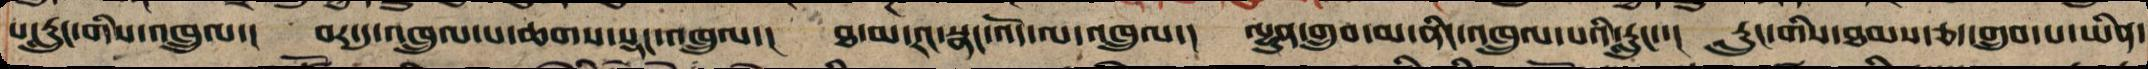པ་རླུང་གིས་འཁྲུལ་།  བར་དུ་འཁྲུལ་པ་ཆགས་སྡང་འཁྲུལ་།  ཐ་མ་རང་སྣང་འོད་ལ་འཁྲུལ་།  ལྷུན་གྲུབ་མ་ནིང་འཁྲུལ་པའི་རླུང་་།  རླུང་གིས་ཐམས་ཅད་གྲུབ་པ་ཡིན་
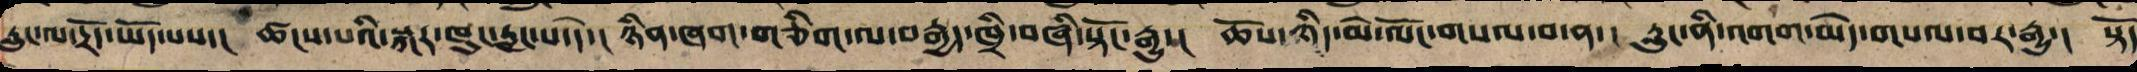རླུང་ལ་དྲོད་ཡོད་པས་།  ཚངས་པའི་སྐར་ཁུངང་རླངས་པ་དེ་།  ཉིན་ཞག་གཅིག་ལ་བརྒྱད་ཁྲི་བཞི་སྟོང་རྒྱུ་།  ཆོས་ཉིད་མེ་ལོང་གསལ་བ་ན་།  རླུང་ནི་འགག་མེད་གསལ་བར་རྒྱུ་། སྟོད
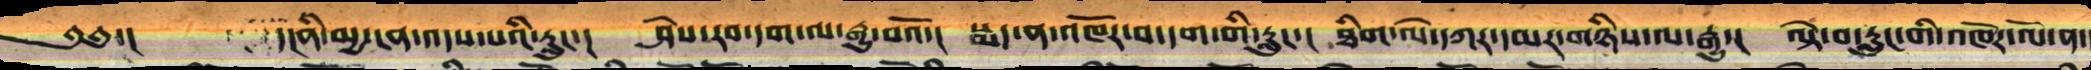༄༅་།      ་།་ནི་མྱ་ངན་འདས་པའི་རླུང་།  ཤེས་རབ་དག་ལ་རྒྱུ་བའོ་།  སྨད་ན་འཁོར་བ་དག་གི་རླུང་།   ཐིག་ལེ་དཀར་དམར་གཉིས་ལ་རྒྱུ་།    ལྟེ་བ་རླུང་གི་འཁོར་ལོ་ན་
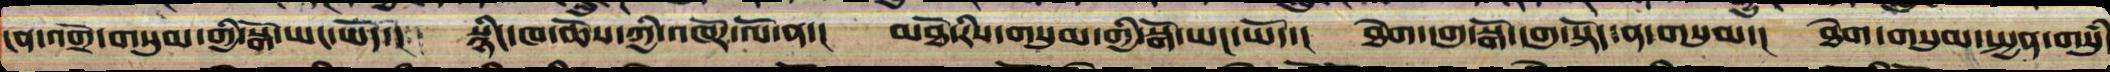ངན་འགྲོ་གསུམ་གྱི་སྒོ་ཡང་ཡོད་།  སྙིང་ཁ་ཆོས་ཀྱི་འཁོར་ལོ་ན་།   མཐོ་རིས་གསུམ་གྱི་སྒོ་ཡང་ཡོད།   ཐེག་དགུ་སྒོ་དགུ་སྟོད་ན་གསུམ་།    ཐེག་གསུམ་སྤྱན་གསུཾ་
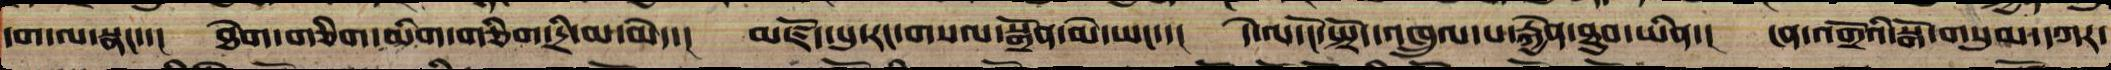དག་ལ་སྣང་་།   ཐེག་གཅིག་མིག་གཅིག་དྲི་མ་མེད་།   མཛོད་པུ་རང་གསལ་སྒྲོན་མེ་ཡང་་།   དེ་ལ་ངོ་སྤྲོད་འཁྲུལ་པ་རྐྱེན་ཐུབ་ཡིན་།   ངན་འགྲོའི་སྒོ་གསུམ་དཀར་
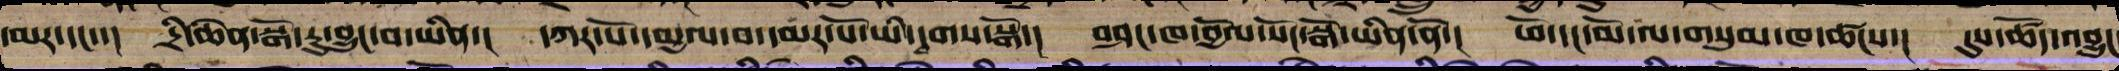དམར་དང་་།   དྲི་ཆེན་སྒོ་རུ་བྱུང་བ་ཡིན་།  དཀར་པོ་དམྱལ་བ་དམར་པོ་ཡི་དྭགས་སྒོ་།  བཤང་ཁ་བྱོལ་སོང་སྒོ་ཡིན་ནོ་།  ཕོ་དང་མོ་ལ་གསུམ་ཁ་ཚང་།  དུས་ཚོད་འབྱུང་
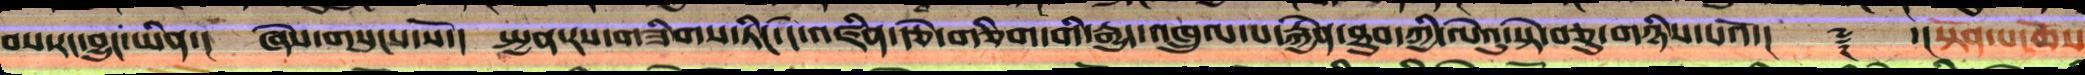བས་རང་བྱུང་ཡིན་།  ཞེས་གསུངས་སོ་།  སྤྱན་རས་གཟིགས་ཏིང་ངེ་འཛིན་རྩེ་གཅིག་གི་རྒྱུད་ལས་འཁྲུལ་པ་རྐྱེན་ཐུབ་ཀྱི་ལེའུ་སྟེ་བཅུ་གཉིས་པའོ་།།     ༈   ་།།སྟོན་པ་ཆོས
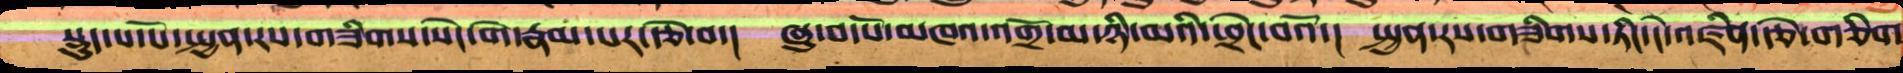སྡུད་པ་པོ་སྤྱན་རས་གཟིགས་སེང་གེ་རྣམ་པར་རྩེ་བ་།  ཞུ་བ་པོ་མཁའ་འགྲོ་མ་ཉི་མའི་ཕྲེང་བའོ་།  སྤྱན་རས་གཟིགས་ཏིང་ངེ་འཛིན་རྩེ་གཅིག
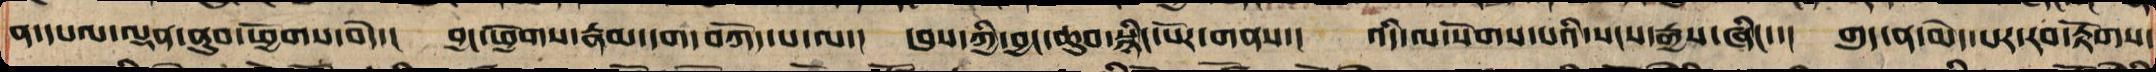ན་དཔལ་ལྡན་ནུབ་ཕྱོགས་བདེ་།  བྱང་ཕྱོགས་རྣམ་དག་བཀོད་པ་ལ་།  དབུས་ཀྱི་བྱང་ཆུབ་སྙིང་པོར་གནས་།  འདི་ལ་སོགས་པའི་སངས་རྒྱས་ཞིང་་།   གུད་ན་མེད་པར་རབ་རྟོགས་
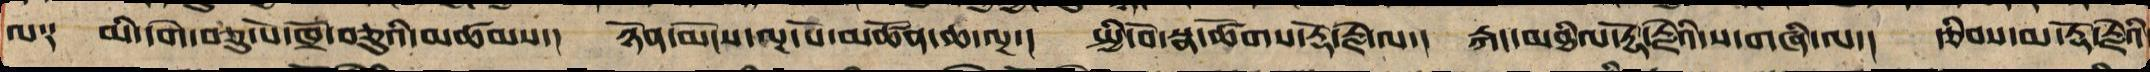ལ༑  མི་དགེ་བཅུ་པོ་ཁྲོ་བཅུའི་མཚམས་།  ཉོན་མོངས་ལྔ་པོ་མཚོན་ཆ་ལྔ་།  སྤྱི་བོ་སྣ་ཚོགས་རྡོ་རྗེ་ལ་།  རྐང་མཐིལ་རྡོ་རྗེའི་ས་གཞི་ལ་། རྩིབས་མ་རྡོ་རྗེའི་
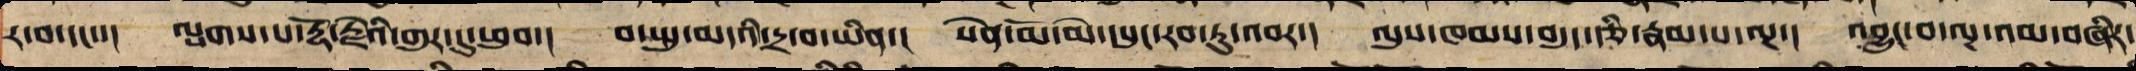ར་བ་དང་་།   ལྤགས་པ་རྡོ་རྗེའི་གུར་དུ་ཕུབ་།  བ་སྤུ་མདའི་དྲ་བ་ཡིན་།  སེན་མོ་མེ་དཔུང་རབ་ཏུ་འབར་།  ལུས་ཁམས་བདུད་རྩི་རྣམ་པ་ལྔ་།  འབྱུང་བ་ལྔ་འམ་བཞིར་
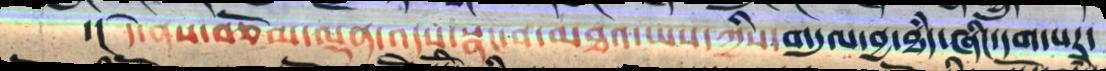་།། དེ་ནས་བཅོམ་ལྡན་འདས་སྣང་བ་མཐའ་ཡས་ཀྱིས་གདུལ་བྱ་ཐཾད་ཞིང་དག་པར་
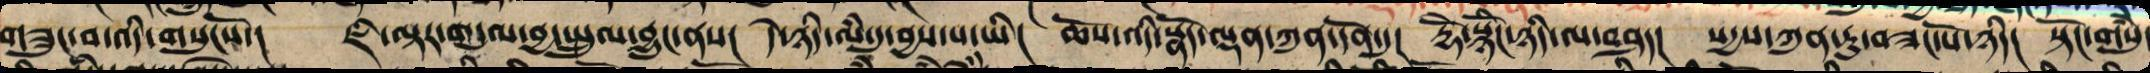གཟུང་བ་འདི་གསུངསོ་།  ཇི་ལྟར་གདུལ་བྱ་སྤྲུལ་བྱུང་ནས།  དེ་ཉིད་ལཾ་དུ་བྱས་པ་ཡི།  ཆོས་འདི་སྣོད་ལྡན་ཀུན་དོན་དུ།  རྡོེ་སྙིོང་ཉིད་ལ་བཤད།  སདྱས་ཀུན་ཏུ་བཟང་པོ་ཉིད། སྟོང་གསུཾ་
